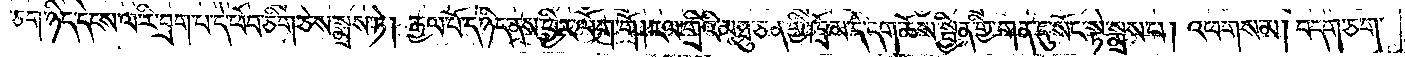ཅག་ཉིད་དེངས་ལ་རི་བྲག་པ་དེ་ཕོབ་ཅིག་ཅེས་སྨྲས་ཏེ། རྒྱལ་པོ་དེ་ཉིད་ནས་ཕྱིར་ལོག་གོ །རལ་གྲིའི་མཐུ་ཅན་གྱི་ཁྲོམ་དེ་དག་ཆོས་སྦྱིན་གྱི་གན་དུ་སོང་སྟེ་སྨྲས་པ། འཕགས་མ། བདག་ཅག་
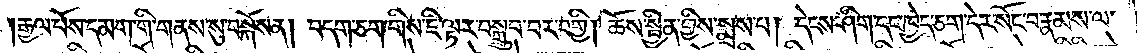རྒྱལ་པོས་དམག་གི་གནས་སུ་བསྐོས་ན། བདག་ཅག་གིས་ཇི་ལྟར་བསྒྲུབ་པར་བགྱི། ཆོས་སྦྱིན་གྱིས་སྨྲས་པ། དེངས་ཤིག་དང་ཁྱེད་ཅག་དེར་སོང་བ་རྣམས་ལ་
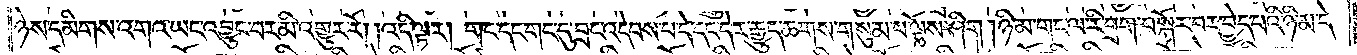ཉེས་དམིགས་འགའ་ཡང་འབྱུང་བར་མི་འགྱུར་རོ། །འདི་ལྟར། གང་དང་གང་དུ་བྲང་འདེབས་པ་དེ་དང་དེར་རྒྱུད་ཆགས་གསུམ་པ་ལྟོས་ཤིག །ཉི་མ་གང་ལ་རི་བྲག་བསྐོར་བར་བྱེད་པའི་ཉི་མ་དེ་
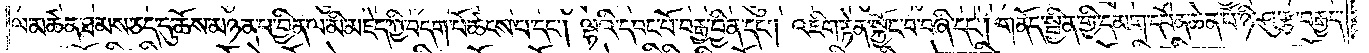ལ་མཚན་ཐམས་ཅད་དུ་ཆོས་མཉན་པ་བྱིན་ལ་མི་མཇེད་ཀྱི་བདག་པོ་ཚངས་པ་དང༌། ལྷའི་དབང་པོ་བརྒྱ་བྱིན་དང༌། འཇིག་རྟེན་སྐྱོང་བ་བཞི་དང༌། གནོད་སྦྱིན་གྱི་དམག་དཔོན་ཆེན་པོ་ཉི་ཤུ་རྩ་བརྒྱད་
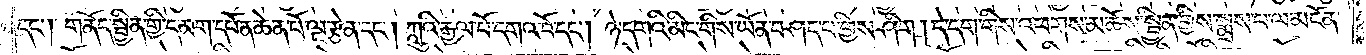དང༌། གནོད་སྦྱིན་གྱི་དམག་དཔོན་ཆེན་པོ་ལྔ་རྩེན་དང༌། ཀླུའི་རྒྱལ་པོ་དགའ་བོ་དང༌། ཉེ་དགའི་མིང་གིས་ཡོན་བཤད་པ་གྱིས་ཤིག །དེ་དག་གིས་འཕགས་མ་ཆོས་སྦྱིན་གྱིས་སྨྲས་པ་ལ་མངོན་
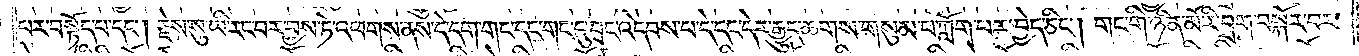པར་བསྟོད་པ་དང༌། རྗེས་སུ་ཡི་རང་བར་བྱས་ཏེ་འཕགས་ནས་དེ་དག་གང་དང་གང་དུ་བྲང་འདེབས་པ་དེ་དང་དེར་རྒྱུད་ཆགས་གསུམ་པ་ཀློག་པར་བྱེད་ཅིང༌། གང་གི་ཉིན་མོ་རི་བྲག་བསྐོར་བར་
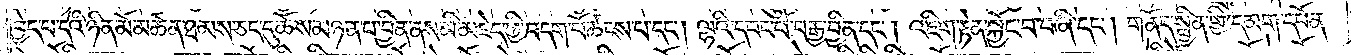བྱེད་པ་དེའི་ཉིན་མོ་མཚན་ཐམས་ཅད་དུ་ཆོས་མཉན་པ་བྱིན་ནས་མི་མཇེད་ཀྱི་བདག་པོ་ཚངས་པ་དང༌། ལྷའི་དབང་པོ་བརྒྱ་བྱིན་དང༌། འཇིག་རྟེན་སྐྱོང་བ་བཞི་དང༌། གནོད་སྦྱིན་གྱི་དམག་དཔོན་
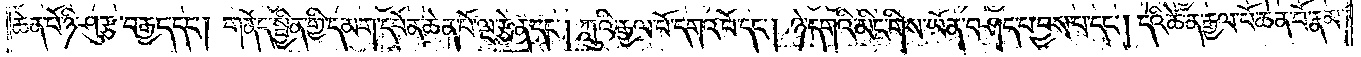ཆེན་པོ་ཉི་ཤུ་རྩ་བརྒྱད་དང༌། གནོད་སྦྱིན་གྱི་དམག་དཔོན་ཆེན་པོ་ལྔ་རྩེན་དང༌། ཀླུའི་རྒྱལ་པོ་དགའ་བོ་དང༌། ཉེ་དགའི་མིང་གིས་ཡོན་བཤད་པ་བྱས་པ་དང༌། དེའི་ཚེ་ན་རྒྱལ་པོ་ཆེན་པོ་རྣམ་
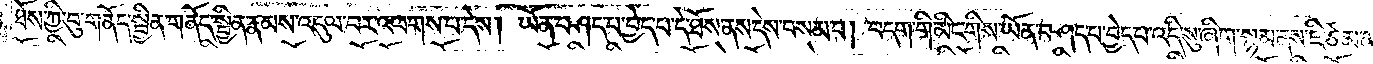ཐོས་ཀྱི་བུ་གནོད་སྦྱིན་གནོད་སྦྱིན་རྣམས་འདུལ་བར་འཕགས་པ་དེས། ཡོན་བཤད་པ་བྱེད་པ་དེ་ཐོས་ནས་དེས་བསམ་པ། བདག་གི་མིང་གིས་ཡོན་བཤད་པ་བྱེད་པ་འདི་སུ་ཞིག་སྙམ་ནས་ཇི་ཙམ་ན་
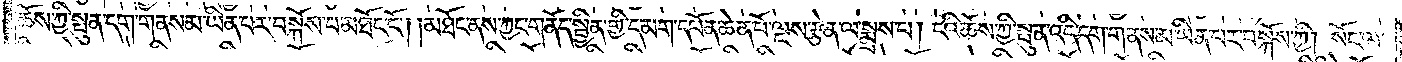ཆོས་ཀྱི་སྤུན་དག་གནས་མ་ཡིན་པར་བསྐོས་པ་མཐོང་ངོ༌། །མཐོང་ནས་ཀྱང་གནོད་སྦྱིན་གྱི་དམག་དཔོན་ཆེན་པོ་ལྔས་རྩེན་ལ་སྨྲས་པ། ངའི་ཆོས་ཀྱི་སྤུན་འདི་དག་གནས་མ་ཡིན་པར་བསྐོས་ཀྱི། སོང་ལ་
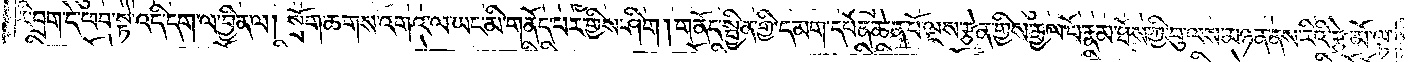རི་བྲག་དེ་ཕབ་སྟེ་འདི་དག་ལ་བྱིན་ལ། སྲོག་ཆགས་འགའ་ལ་ཡང་མི་གནོད་པར་གྱིས་ཤིག །གནོད་སྦྱིན་གྱི་དམག་དཔོན་ཆེན་པོ་ལྔས་རྩེན་གྱིས་རྒྱལ་པོ་རྣམ་ཐོས་ཀྱི་བུ་ལས་མཉན་ནས་རིའི་རྩེ་མོ་ལྟ་
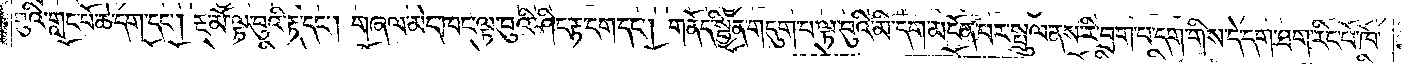བུའི་གླང་པོ་ཆེ་དག་དང༌། རྔ་མོ་ལྟ་བུའི་རྟ་དང༌། གཞལ་མེད་ཁང་ལྟ་བུའི་ཤིང་རྟ་དག་དང༌། གནོད་སྦྱིན་གདུག་པ་ལྟ་བུའི་མི་དག་མངོན་པར་སྤྲུལ་ནས་རི་བྲག་པ་དག་གིས་དེ་དག་ཐག་རིང་པོ་ཁོ་
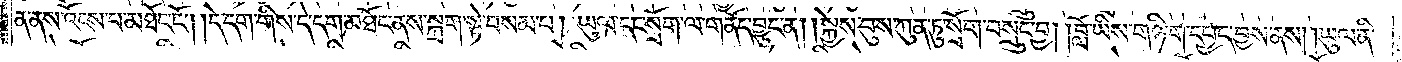ན་ནས་འོངས་པ་མཐོང་ངོ༌། །དེ་དག་གིས་དེ་དག་མཐོང་ནས་སྐྲག་སྟེ་བསམ་པ། ཡུལ་དང་སྲོག་ལ་གནོད་བྱུང་ན། །སྐྱེས་བུས་ཀུན་ཏུ་སྲོག་བསྲུང་བྱ། །བློ་ཡིས་གཉི་ག་དཔྱད་བྱས་ནས། །ཡུལ་ནི་
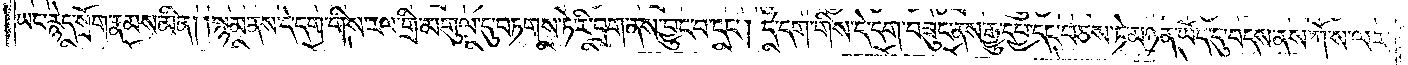ཡང་རྙེད་སྲོག་རྣམས་མིན། །སྙམ་ནས་དེ་དག་གིས་རལ་གྲི་མགུལ་དུ་བཏགས་ཏེ་རི་བྲག་ནས་བྱུང་བ་དང༌། དེ་དག་གིས་དེ་དག་བཟུང་ནས་རྒྱུ་དཔྱ་དང་བཅས་ཏེ་མཉན་ཡོད་དུ་བདས་ནས་ཀོ་ས་ལར་
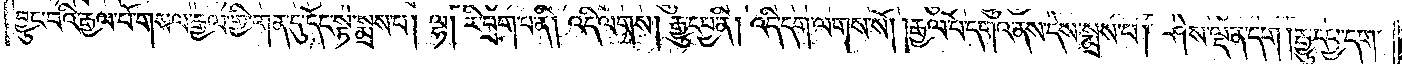བྱུང་བའི་རྒྱལ་པོ་གསལ་རྒྱལ་གྱི་གན་དུ་དོང་སྟེ་སྨྲས་པ། ལྷ། རི་བྲག་པ་ནི། འདི་ལགས། རྒྱུ་དཔྱ་ནི། འདི་དག་ལགས་སོ། རྒྱལ་པོ་དགའ་ནས་དེས་སྨྲས་པ། ཤེས་ལྡན་དག །རྒྱུ་དཔྱ་དག་
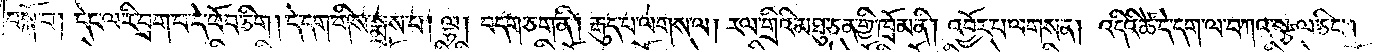བསྒོ་བ། དེང་ལ་རི་བྲག་པ་དེ་ཕོབ་ཅིག །དེ་དག་གིས་སྨྲས་པ། ལྷ། བདག་ཅག་ནི། རྒུད་པ་ལགས་ལ། རལ་གྲིའི་མཐུ་ཅན་གྱི་ཁྲོམ་ནི། འབྱོར་པ་ལགས་ན། འདིའི་ཚེ་དེ་དག་ལ་བཀའ་སྩལ་ཅིང༌།
